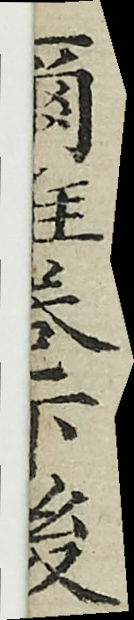爾雅卷下後
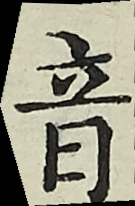音
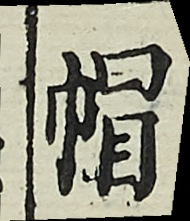帽
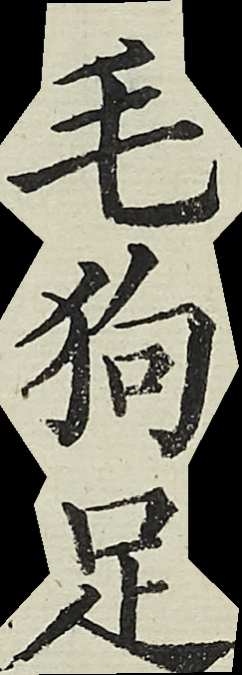毛狗足
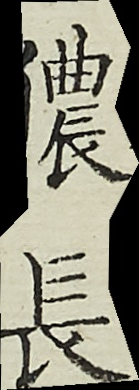㺜長
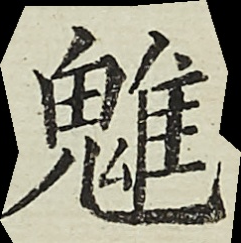魋
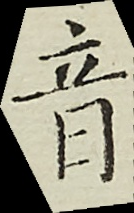音
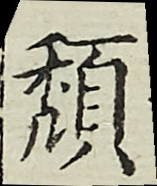頹
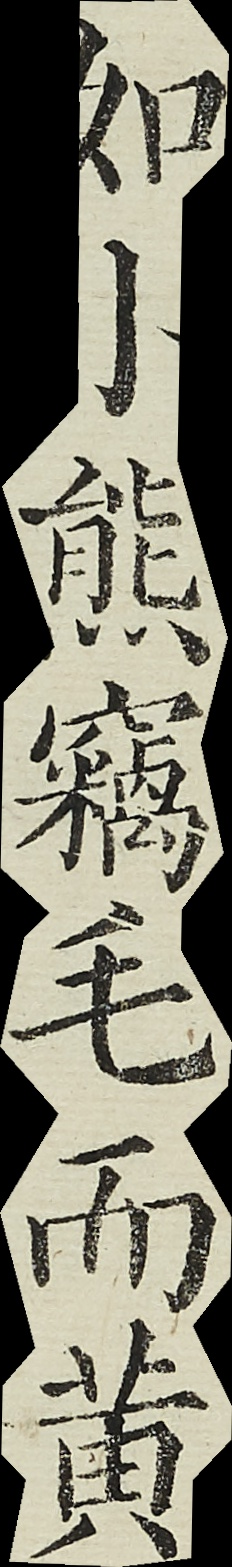如小熊竊毛而黃
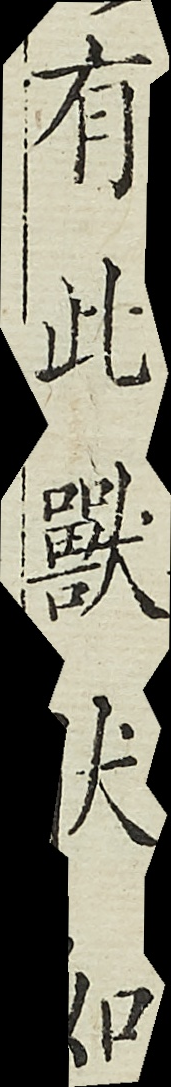有此獸狀如
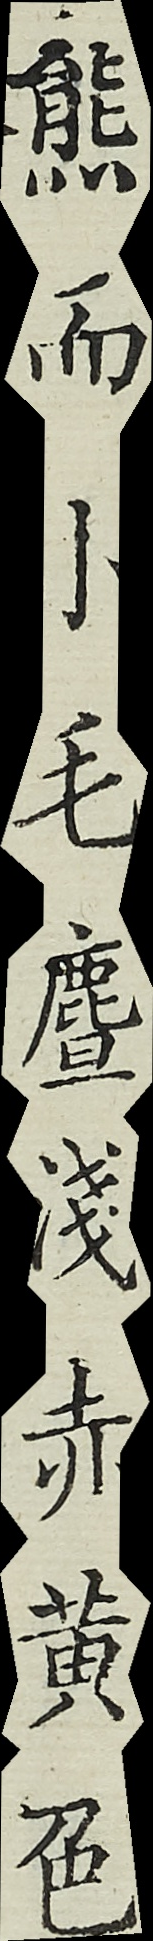熊而小毛麆淺赤黃色
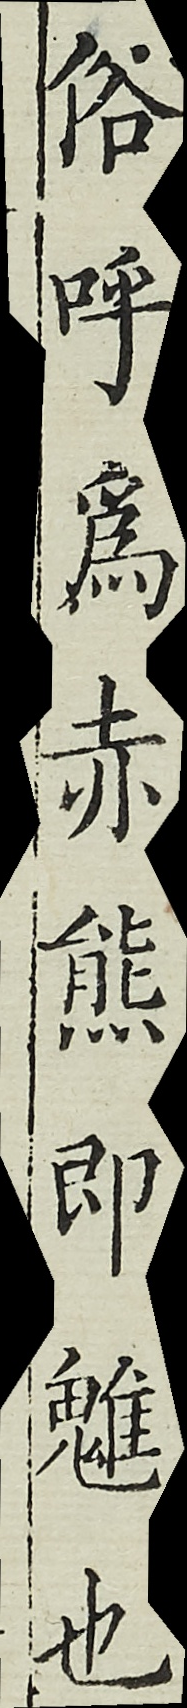俗呼為赤熊即魋也
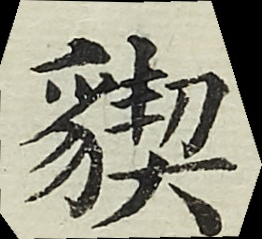䝟
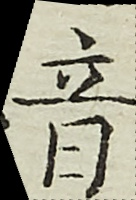音
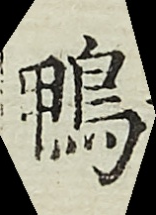鴨
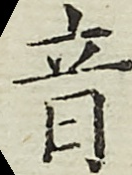音
